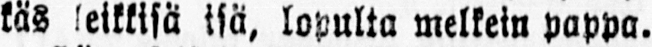käs leikkisä isä, lopulta melkein pappa.
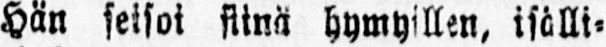Hän seisoi siinä hymyillen, isälli-
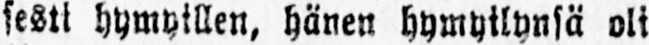sesti hymyillen, hänen hymyilynsä oli
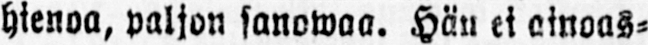hienoa, paljon sanowaa. Hän ei ainoas-
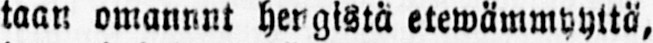taan omannut hengistä etewämmyyttä,
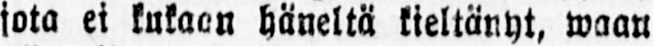jota ei kukaan häneltä kieltänyt, waan
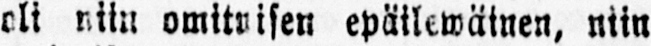oli niin omituisen epäilewäinen, niin
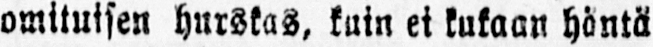omituisen hurskas, kuin ei kukaan häntä
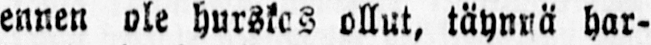ennen ole hurskas ollut, täynnä har-
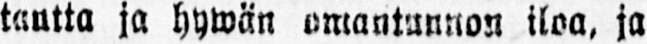tautta ja hywän omantunnon iloa, ja
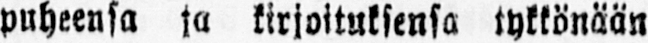puheensa ja kirjoituksensa tykkänään
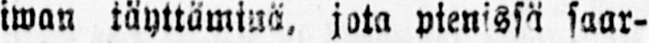iwan täyttämiuä, jota pienessä saar-
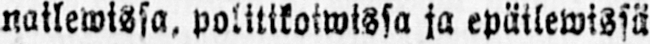nailewissa, politikoiwissa ja epäilewissä
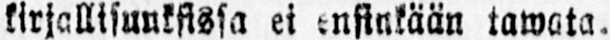kirjallisuuksissa ei ensinkään tawata.
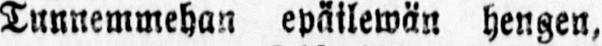Tunnemmehan epäilewän hengen,
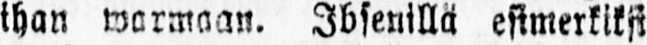ihan warmaan. Ibsenillä esimerkiksi
